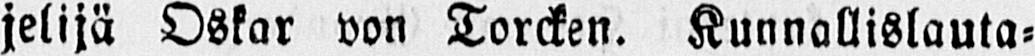jelijä Oskar von Torcken. Kunnallislauta-
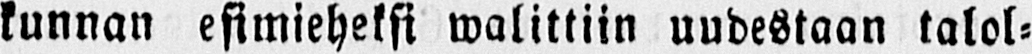kunnan esimieheksi walittiin uudestaan talol-
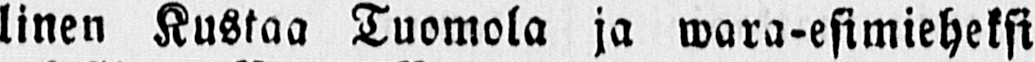linen Kustaa Tuomola ja wara-esimieheksi
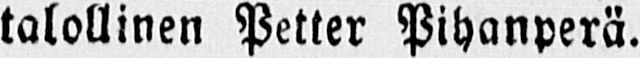talollinen Petter Pihanperä.
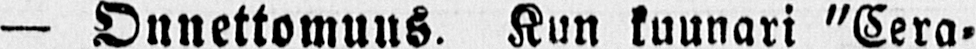— Onnettomuus. Kun kuunari "Cera-
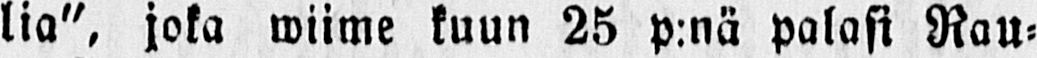lia", joka wiime kuun 25 p:nä palasi Rau-
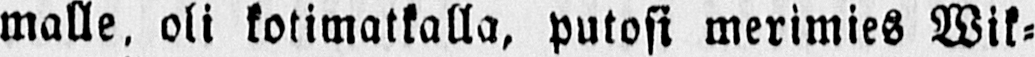malle, oli kotimatkalla, putosi merimies Wik-
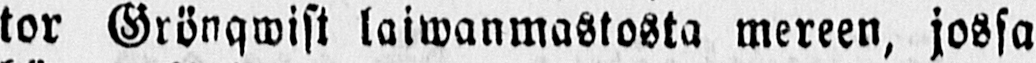tor Grönqwist laiwanmastosta mereen, jossa
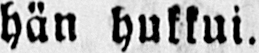hän hukkui.
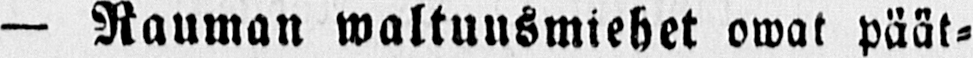— Rauman waltuusmiehet owat päät-
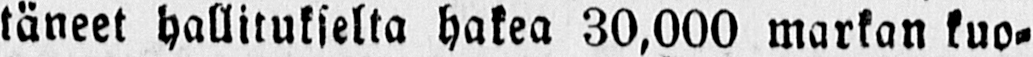täneet hallitukselta hakea 30,000 markan kuo-
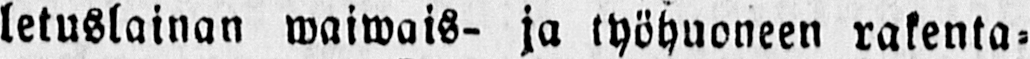letuslainan waiwais- ja työhuoneen rakenta-
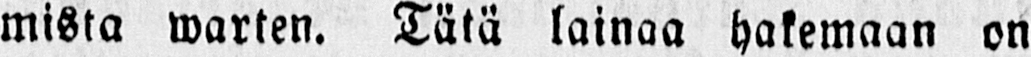mista warten. Tätä lainaa hakemaan on
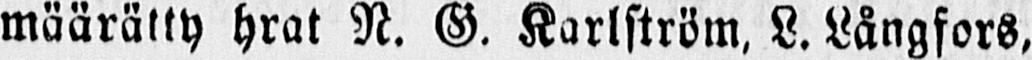määrätty hrat N. G. Karlström, L. Långfors,
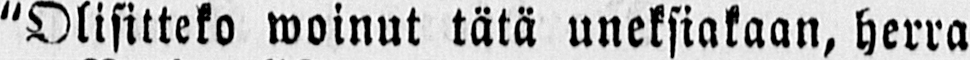"Olisitteko woinut tätä uneksiakaan, herra
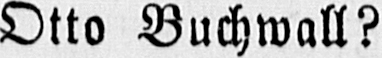Otto Buchwall?
